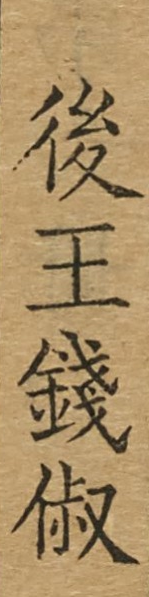後王錢俶
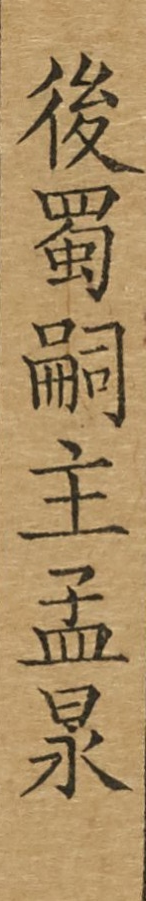後蜀嗣主孟昶
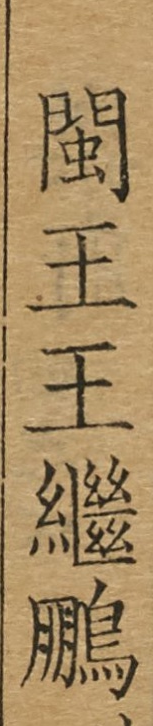閩王王繼鵬
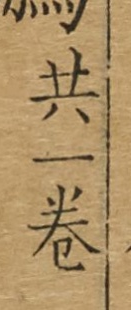共一卷
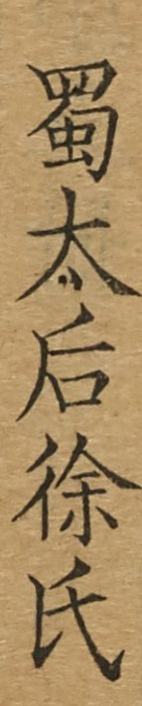蜀太后徐氏
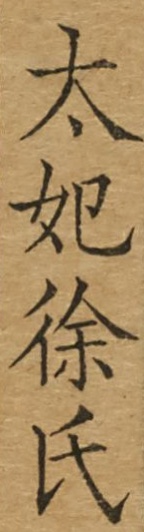太妃徐氏
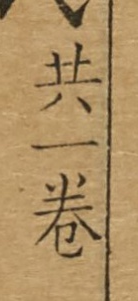共一卷
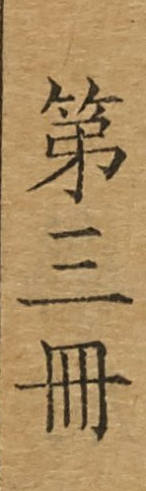第三冊
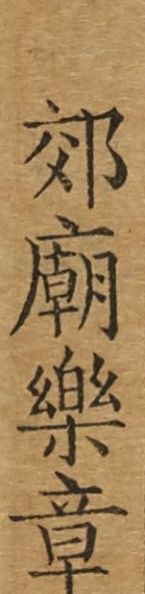郊廟樂章
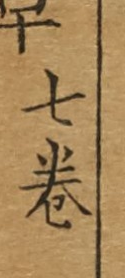七卷
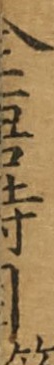全唐詩目
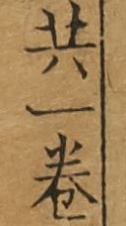共一卷
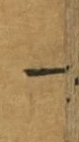一
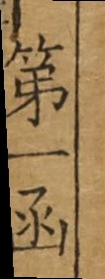第一函
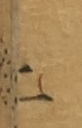二
